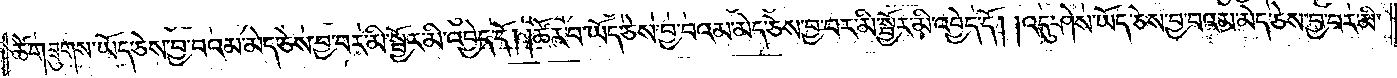ཚེ་གཟུགས་ཡོད་ཅེས་བྱ་བའམ་མེད་ཅེས་བྱ་བར་མི་སྦྱོར་མི་འབྱེད་དོ། །ཚོར་བ་ཡོད་ཅེས་བྱ་བའམ་མེད་ཅེས་བྱ་བར་མི་སྦྱོར་མི་འབྱེད་དོ། །འདུ་ཤེས་ཡོད་ཅེས་བྱ་བའམ་མེད་ཅེས་བྱ་བར་མི་
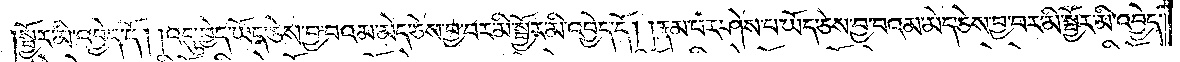སྦྱོར་མི་འབྱེད་དོ། །འདུ་བྱེད་ཡོད་ཅེས་བྱ་བའམ་མེད་ཅེས་བྱ་བར་མི་སྦྱོར་མི་འབྱེད་དོ། །རྣམ་པར་ཤེས་པ་ཡོད་ཅེས་བྱ་བའམ་མེད་ཅེས་བྱ་བར་མི་སྦྱོར་མི་འབྱེད་
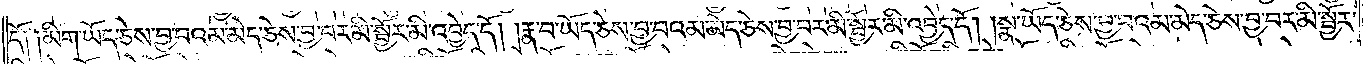དོ༑ ༑མིག་ཡོད་ཅེས་བྱ་བའམ་མེད་ཅེས་བྱ་བར་མི་སྦྱོར་མི་འབྱེད་དོ། །རྣ་བ་ཡོད་ཅེས་བྱ་བའམ་མེད་ཅེས་བྱ་བར་མི་སྦྱོར་མི་འབྱེད་དོ། །སྣ་ཡོད་ཅེས་བྱ་བའམ་མེད་ཅེས་བྱ་བར་མི་སྦྱོར་
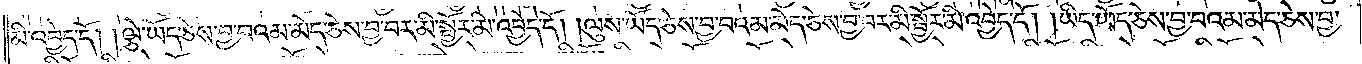མི་འབྱེད་དོ། །ལྕེ་ཡོད་ཅེས་བྱ་བའམ་མེད་ཅེས་བྱ་བར་མི་སྦྱོར་མི་འབྱེད་དོ། །ལུས་ཡོད་ཅེས་བྱ་བའམ་མེད་ཅེས་བྱ་བར་མི་སྦྱོར་མི་འབྱེད་དོ། །ཡིད་ཡོད་ཅེས་བྱ་བའམ་མེད་ཅེས་བྱ་
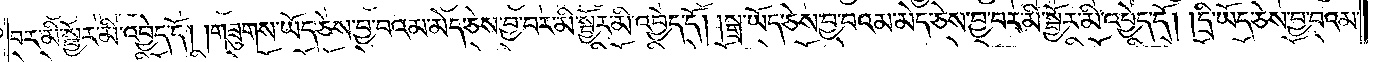བར་མི་སྦྱོར་མི་འབྱེད་དོ། །གཟུགས་ཡོད་ཅེས་བྱ་བའམ་མེད་ཅེས་བྱ་བར་མི་སྦྱོར་མི་འབྱེད་དོ། །སྒྲ་ཡོད་ཅེས་བྱ་བའམ་མེད་ཅེས་བྱ་བར་མི་སྦྱོར་མི་འབྱེད་དོ། །དྲི་ཡོད་ཅེས་བྱ་བའམ་
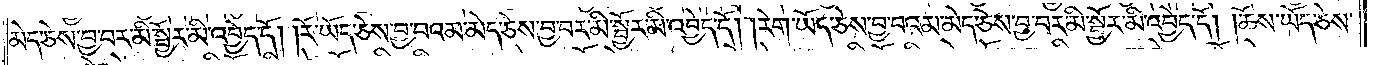མེད་ཅེས་བྱ་བར་མི་སྦྱོར་མི་འབྱེད་དོ། །རོ་ཡོད་ཅེས་བྱ་བའམ་མེད་ཅེས་བྱ་བར་མི་སྦྱོར་མི་འབྱེད་དོ། །རེག་ཡོད་ཅེས་བྱ་བའམ་མེད་ཅེས་བྱ་བར་མི་སྦྱོར་མི་འབྱེད་དོ། །ཆོས་ཡོད་ཅེས་
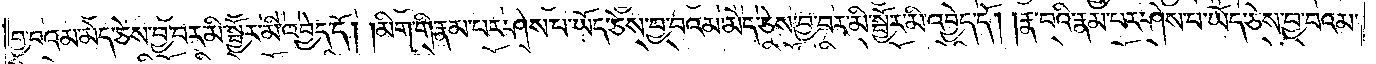བྱ་བའམ་མེད་ཅེས་བྱ་བར་མི་སྦྱོར་མི་འབྱེད་དོ། །མིག་གི་རྣམ་པར་ཤེས་པ་ཡོད་ཅེས་བྱ་བའམ་མེད་ཅེས་བྱ་བར་མི་སྦྱོར་མི་འབྱེད་དོ། །རྣ་བའི་རྣམ་པར་ཤེས་པ་ཡོད་ཅེས་བྱ་བའམ་
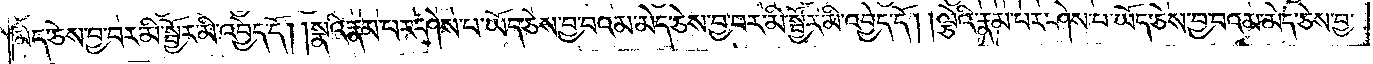མེད་ཅེས་བྱ་བར་མི་སྦྱོར་མི་འབྱེད་དོ། །སྣའི་རྣམ་པར་ཤེས་པ་ཡོད་ཅེས་བྱ་བའམ་མེད་ཅེས་བྱ་བར་མི་སྦྱོར་མི་འབྱེད་དོ། །ལྕེའི་རྣམ་པར་ཤེས་པ་ཡོད་ཅེས་བྱ་བའམ་མེད་ཅེས་བྱ་
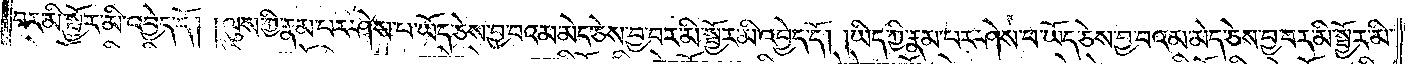བར་མི་སྦྱོར་མི་འབྱེད་དོ། །ལུས་ཀྱི་རྣམ་པར་ཤེས་པ་ཡོད་ཅེས་བྱ་བའམ་མེད་ཅེས་བྱ་བར་མི་སྦྱོར་མི་འབྱེད་དོ། །ཡིད་ཀྱི་རྣམ་པར་ཤེས་པ་ཡོད་ཅེས་བྱ་བའམ་མེད་ཅེས་བྱ་བར་མི་སྦྱོར་མི་
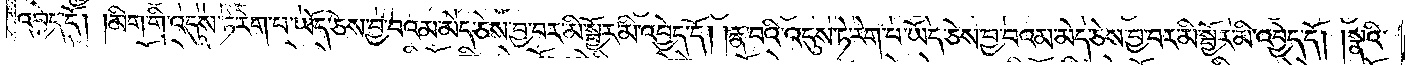འབྱེད་དོ། །མིག་གི་འདུས་ཏེ་རེག་པ་ཡོད་ཅེས་བྱ་བའམ་མེད་ཅེས་བྱ་བར་མི་སྦྱོར་མི་འབྱེད་དོ། །རྣ་བའི་འདུས་ཏེ་རེག་པ་ཡོད་ཅེས་བྱ་བའམ་མེད་ཅེས་བྱ་བར་མི་སྦྱོར་མི་འབྱེད་དོ། །སྣའི་
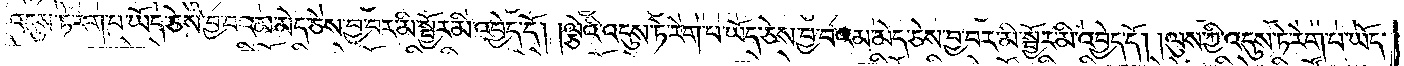འདུས་ཏེ་རེག་པ་ཡོད་ཅེས་བྱ་བའམ་མེད་ཅེས་བྱ་བར་མི་སྦྱོར་མི་འབྱེད་དོ། །ལྕེའི་འདུས་ཏེ་རེག་པ་ཡོད་ཅེས་བྱ་བའམ་མེད་ཅེས་བྱ་བར་མི་སྦྱོར་མི་འབྱེད་དོ། །ལུས་ཀྱི་འདུས་ཏེ་རེག་པ་ཡོད་
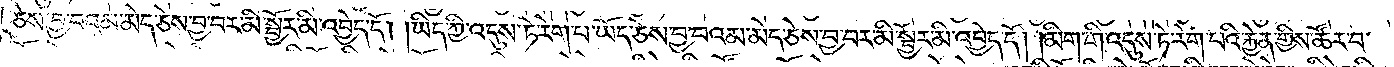ཅེས་བྱ་བའམ་མེད་ཅེས་བྱ་བར་མི་སྦྱོར་མི་འབྱེད་དོ། །ཡིད་ཀྱི་འདུས་ཏེ་རེག་པ་ཡོད་ཅེས་བྱ་བའམ་མེད་ཅེས་བྱ་བར་མི་སྦྱོར་མི་འབྱེད་དོ། །མིག་གི་འདུས་ཏེ་རེག་པའི་རྐྱེན་གྱིས་ཚོར་བ་
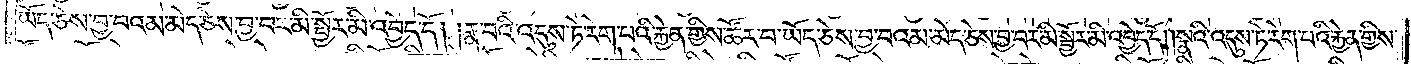ཡོད་ཅེས་བྱ་བའམ་མེད་ཅེས་བྱ་བར་མི་སྦྱོར་མི་འབྱེད་དོ། །རྣ་བའི་འདུས་ཏེ་རེག་པའི་རྐྱེན་གྱིས་ཚོར་བ་ཡོད་ཅེས་བྱ་བའམ་མེད་ཅེས་བྱ་བར་མི་སྦྱོར་མི་འབྱེད་དོ། །སྣའི་འདུས་ཏེ་རེག་པའི་རྐྱེན་གྱིས་
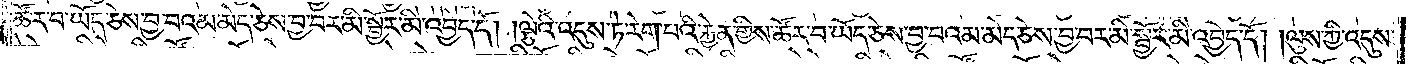ཚོར་བ་ཡོད་ཅེས་བྱ་བའམ་མེད་ཅེས་བྱ་བར་མི་སྦྱོར་མི་འབྱེད་དོ། །ལྕེའི་འདུས་ཏེ་རེག་པའི་རྐྱེན་གྱིས་ཚོར་བ་ཡོད་ཅེས་བྱ་བའམ་མེད་ཅེས་བྱ་བར་མི་སྦྱོར་མི་འབྱེད་དོ། །ལུས་ཀྱི་འདུས་
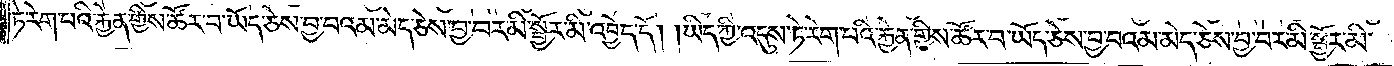ཏེ་རེག་པའི་རྐྱེན་གྱིས་ཚོར་བ་ཡོད་ཅེས་བྱ་བའམ་མེད་ཅེས་བྱ་བར་མི་སྦྱོར་མི་འབྱེད་དོ། །ཡིད་ཀྱི་འདུས་ཏེ་རེག་པའི་རྐྱེན་གྱིས་ཚོར་བ་ཡོད་ཅེས་བྱ་བའམ་མེད་ཅེས་བྱ་བར་མི་སྦྱོར་མི་
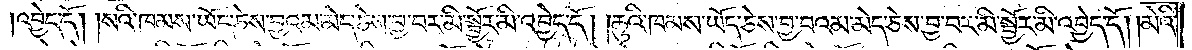འབྱེད་དོ། །སའི་ཁམས་ཡོད་ཅེས་བྱའམ་མེད་ཅེས་བྱ་བར་མི་སྦྱོར་མི་འབྱེད་དོ། །ཆུའི་ཁམས་ཡོད་ཅེས་བྱ་བའམ་མེད་ཅེས་བྱ་བར་མི་སྦྱོར་མི་འབྱེད་དོ། །མེའི་
